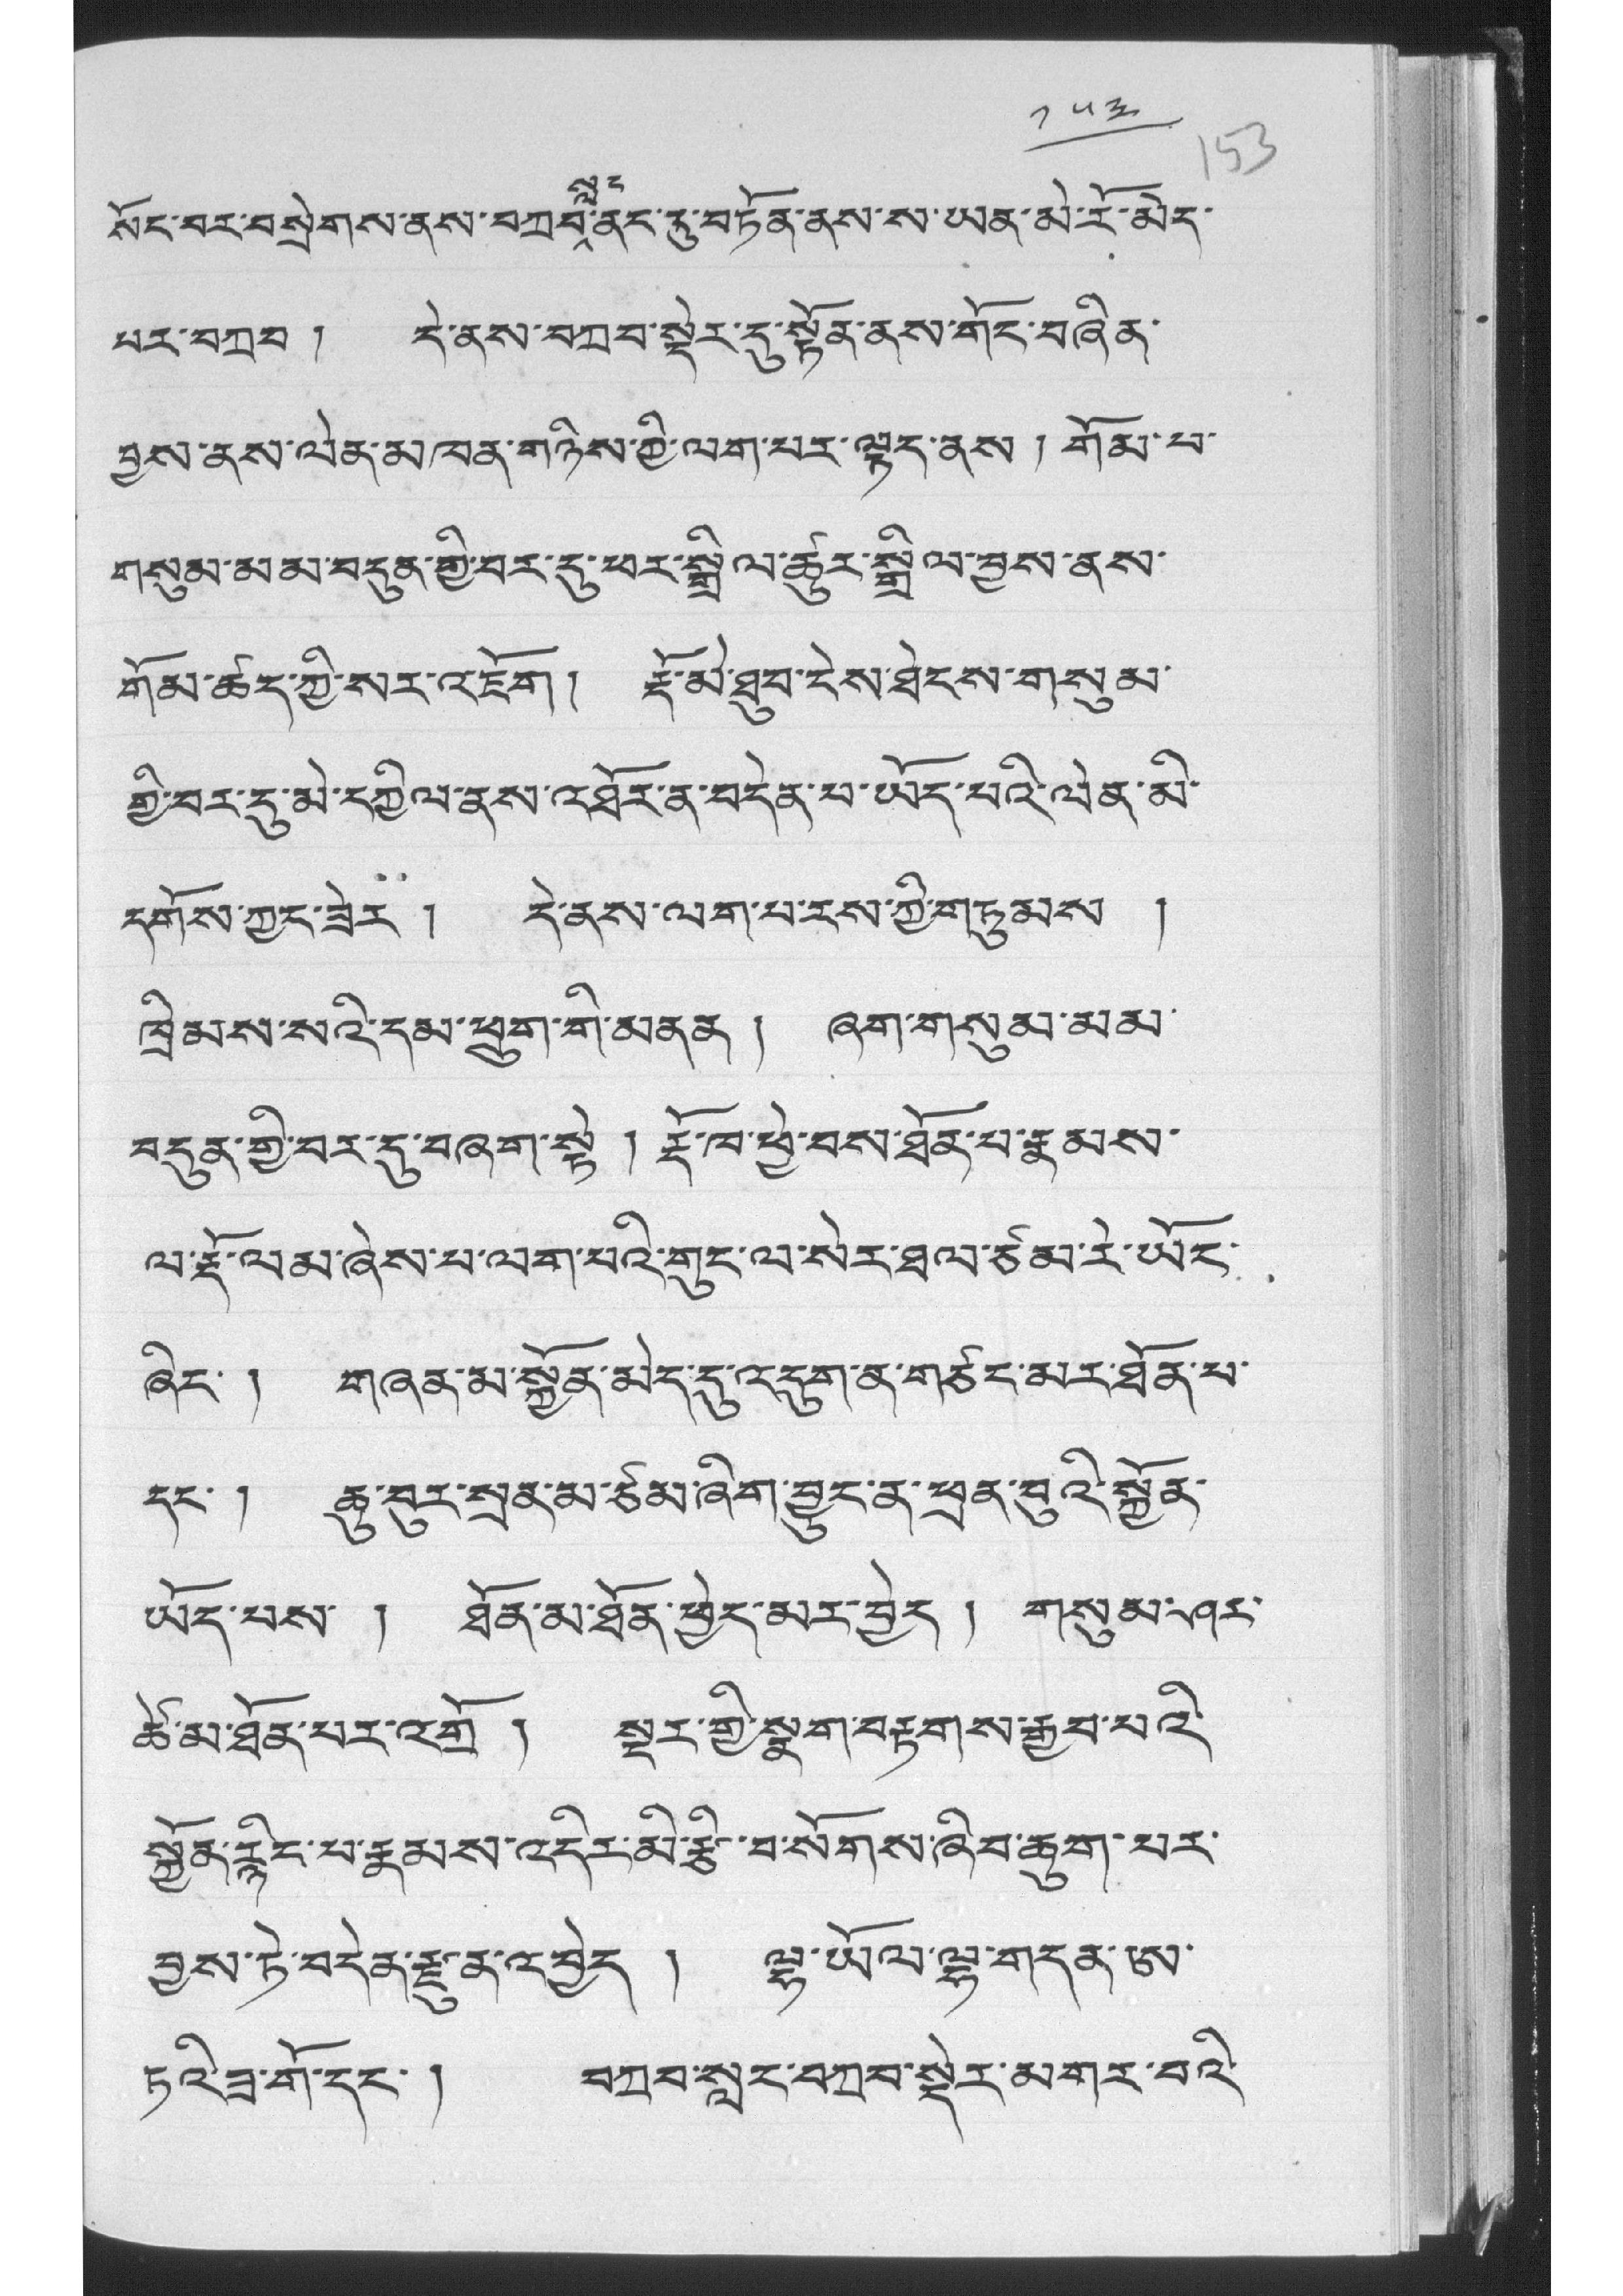༡༥༣
སོང་བར་བསྲེགས་ནས་བཀབ་སླང་ནང་དུ་བཏོན་ནས་ས་ཡན་མེ་རོ་མེད་
པར་བཀྲབ ། དེ་ནས་བཀབ་སྡེར་དུ་སྟོན་ནས་གོང་བཞིན་
བྱས་ནས་ལེན་མཁན་གཉིས་ཀྱི་ལག་པར་ལྟད་ནས ། གོམ་པ་
གསུམ་མམ་བདུན་གྱི་བར་དུ་ཕར་སྒྲིལ་ཚུར་སྒྲིལ་བྱས་ནས་
གོམ་ཚད་ཀྱི་སར་འཇོག། རྡོ་མེ་ཐུབ་ངེས་ཐེངས་གསུམ་
གྱི་བར་དུ་མེ་དཀྱིལ་ནས་འཐོར་ན་བདེན་པ་ཡོད་པའི་ལེན་མི
དགོས་ཀྱང་ཟེར ། དེ་ནས་ལག་པ་རས་ཀྱི་གཏུམས །
ཁྲིམས་སའི་དམ་ཕྲུག་གི་མནན ། ཞག་གསུམ་མམ་
བདུན་གྱི་བར་དུ་བཞག་སྟེ ། རྡོ་ཁ་ཕྱེ་བས་ཐོན་པ་རྣམས་
ལ་རྡོ་ལམ་ཞེས་པ་ལག་པའི་གུང་ལ་སེར་ཐལ་ཙམ་རེ་ཡོང་
ཞིང་ ། གཞན་མ་སྐྱོན་མེད་དུ་འདུག་ན་གཙང་མར་ཐོན་པ་
དང་ ། ཆུ་བུར་སྲན་མ་ཙམ་ཞིག་བྱུང་ན་ཕྲན་བུའི་སྐྱོན་
ཡོད་པས་ ། ཐོན་མ་ཐོན་ཕྱེད་མར་བྱེད ། གསུམ་ཤར་
ཚེ་མ་ཐོན་པར་འགྲོ ། སྔར་གྱི་སྣག་བརྟགས་རྒྱབ་པའི་
སྐྱོན་རྙིང་པ་རྣམས་འདིར་མི་རྩི་བ་སོགས་ཞིབ་ཆུག་པར་
བྱས་ཏེ་བདེན་རྫུན་འབྱེད ། ལྷ་ཡོལ་ལྷ་གདན་ཨ་
ཏའི་ཟ་གོ་དང་། བཀྲབ་སླང་བཀྲབ་སྡེར་མགར་བའི་
